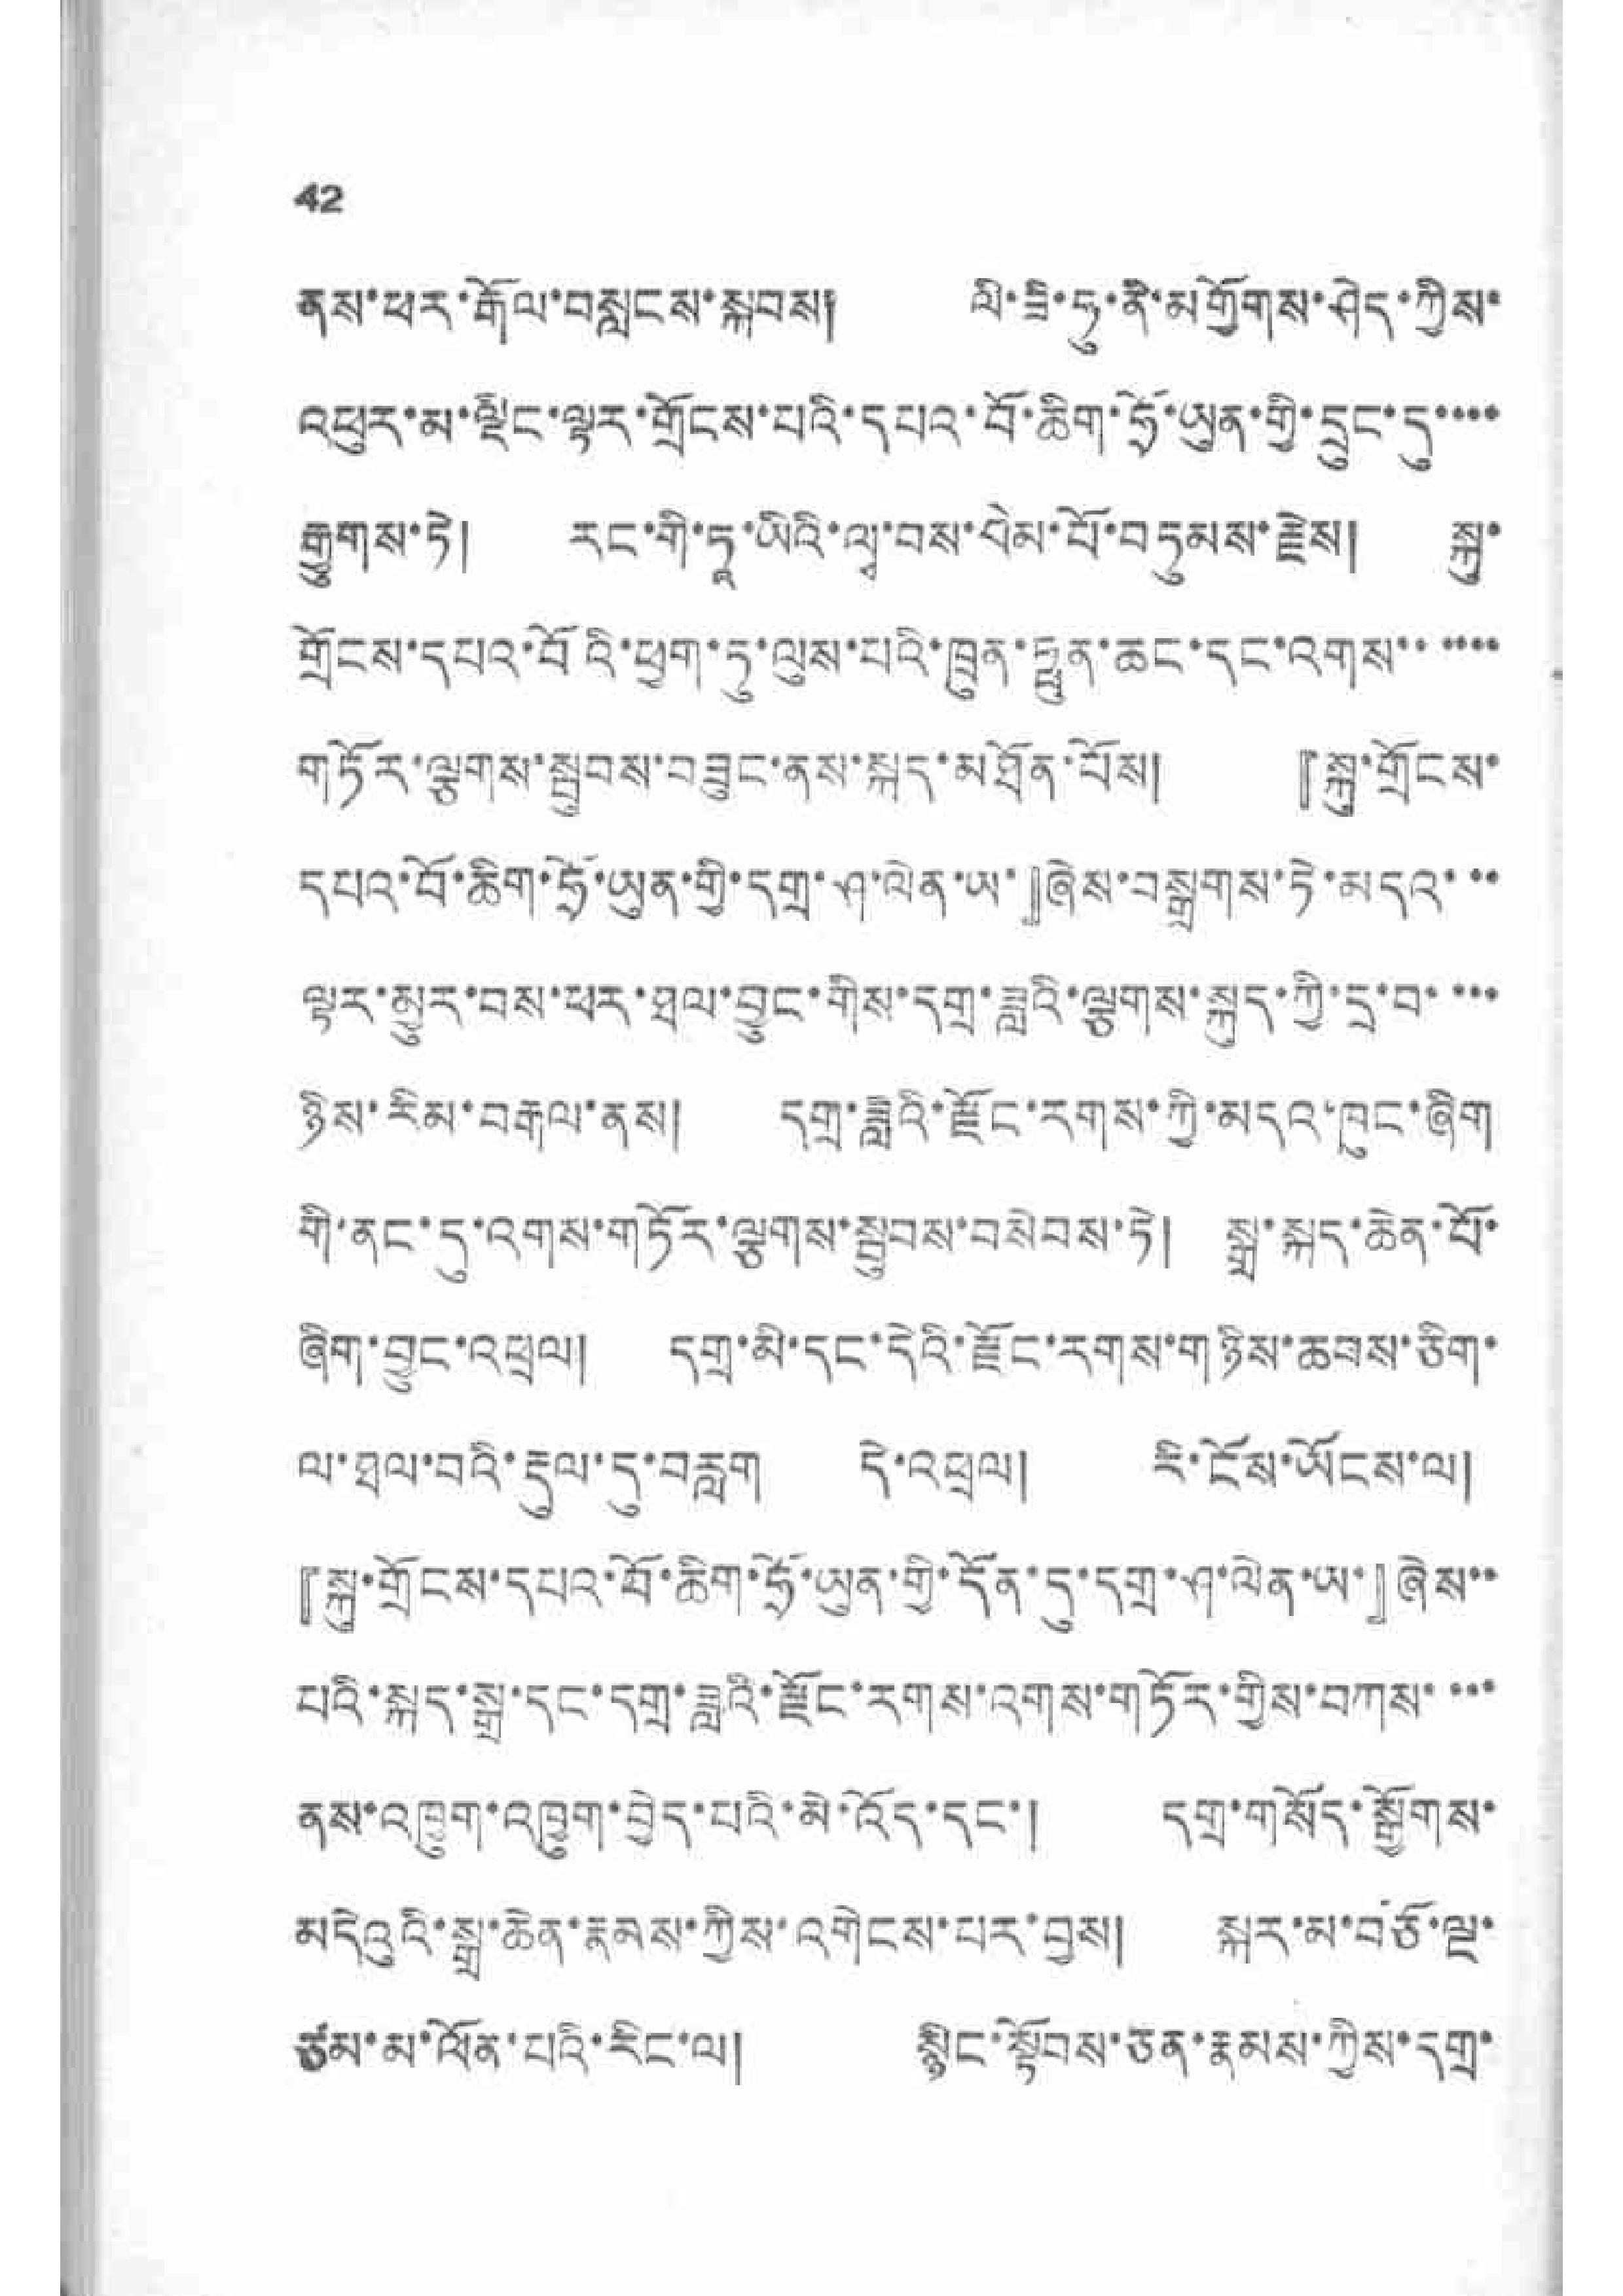42
ནས་ཕར་རྒོལ་བསླངས་སྐབས། ལི་ཟི་ཧུ་ནེ་མགྱོགས་ཤེད་ཀྱིས་
འཕུར་མ་ལྡིང་ལྟར་གྲོངས་པའི་དཔའ་བོ་ཆིག་ཧྲོ་ཡུན་གྱི་དྲུང་དུ་་་་
རྒྱུགས་ཏེ། རང་གི་ཏཱ་ཡིའི་ལྭ་བས་བེམ་པོ་བཏུམས་རྗེས། སྐུ་
གྲོངས་དཔའ་བོའི་ཕྱག་ཏུ་ལུས་པའི་ཁྲུན་ཧྥུན་ཆང་དང་འགས་་་་་་
གཏོར་ལྕགས་སྦུབས་བཟུང་ནས་སྐར་མཐོན་པོས། 『སྐུ་གྲོངས་
དཔའ་བོ་ཆིག་ཧྲོ་ཡུན་གྱི་དགྲ་ཤ་ལེན་ཡ་』ཞེས་བསྒྲགས་ཏེ་མདའ་་་
ལྟར་མྱུར་བྱས་ཕར་ཐལ་བྱུང་གིས་དགྲ་ཟླའི་ལྕགས་སྐུད་ཀྱི་དྲ་བ་་་་
ཉིས་རིམ་བརྒལ་ནས། དགྲ་ཟླའི་རྫོང་རགས་ཀྱི་མདའ་ཁུང་ཞིག
གྱི་ནང་དུ་འགས་གཏོར་ལྕགས་སྦུབས་བསེབས་ཏེ། སྒྲ་སྐད་ཆེན་པོ་
ཞིག་བྱུང་འཕྲལ། དགྲ་མི་དང་དེའི་རྫོང་རགས་གཉིས་ཆབས་ཅིག་
ལ་ཐལ་བའི་རྡུལ་དུ་བརླག དེ་འཕྲལ། རི་ངོས་ཡོངས་ལ།
『སྐུ་གྲོངས་དཔའ་བོ་ཆིག་ཧྲོ་ཡུན་གྱི་དོན་དུ་དགྲ་ཤ་ལེན་ཡ་』ཞེས་་
པའི་སྐད་སྒྲ་དང་དགྲ་ཟླའི་རྫོང་རགས་འགས་གཏོར་གྱིས་བཀས་་་་
ནས་འཁྱུག་འཁྱུག་བྱེད་པའི་མི་འོད་དང་། དགྲ་གསོད་སྒྱོགས་
མདེའུའི་སྒྲ་ཆེན་རྣམས་ཀྱིས་འགེངས་པར་བྱས། སྐར་མ་བཅོ་ལྔ་
ཙམ་མ་ལོན་པའི་རིང་ལ། སྙིང་སྟོབས་ཅན་རྣམས་ཀྱིས་དགྲ་
